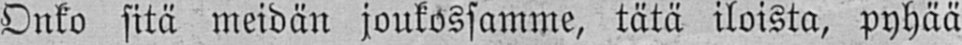Onko sitä meidän joukossamme, tätä iloista, pyhää
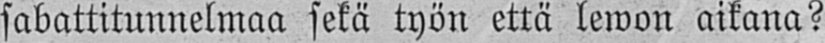sabattitunnelmaa sekä työn että lewon aikana?
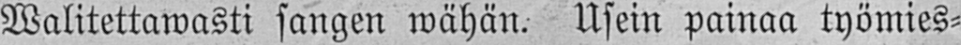Walitettawasti sangen wähän. Usein painaa työmies-
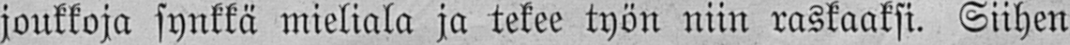joukkoja synkkä mieliala ja tekee työn niin raskaaksi. Siihen
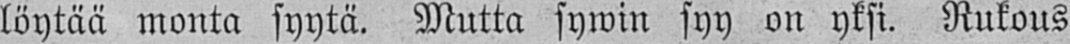löytää monta syytä. Mutta sywin syy on yksi. Rukous
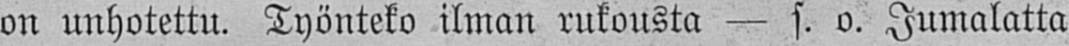on unhotettu. Työnteko ilman rukousta - s. o. Jumalatta
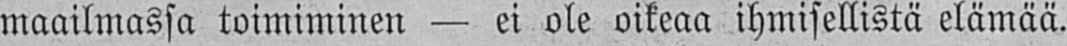maailmassa toimiminen - ei ole oikeaa ihmisellistä elämää.
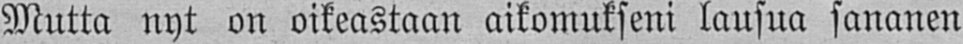Mutta nyt on oikeastaan aikomukseni lausua sananen
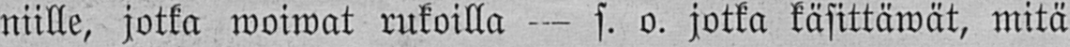niille, jotka woiwat rukoilla - s. o. jotka käsittäwät, mitä
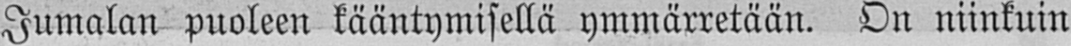Jumalan puoleen kääntymisellä ymmärretään. On niinkuin
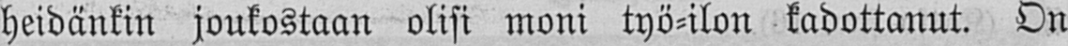heidänkin joukostaan olisi moni työ-ilon kadottanut. On
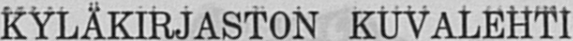KYLÄKIRJASTON KUVALEHTI.
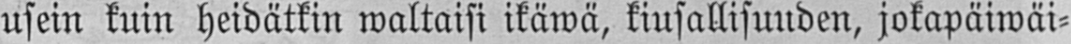usein kuin heidätkin waltaisi ikäwä, kiusallisuuden, jokapäiwäi-
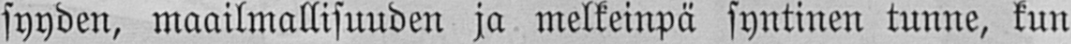syyden, maailmallisuuden ja melkeinpä syntinen tunne, kun
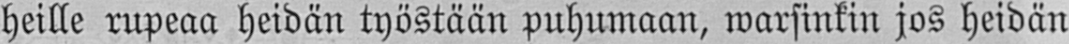heille rupeaa heidän työstään puhumaan, warsinkin jos heidän
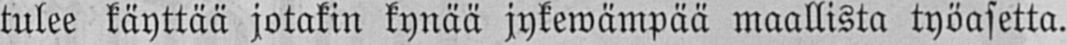tulee käyttää jotakin kynää jykewämpää maallista työasetta.
